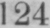124
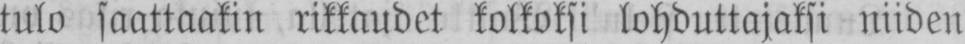tulo saattaakin rikkaudet kolkoksi lohduttajaksi niiden
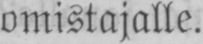omistajalle.
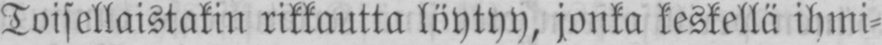Toisellaistakin rikkautta löytyy, jonka keskellä ihmi-
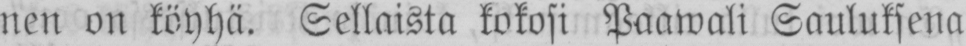nen on köyhä. Sellaista kokosi Paawali Sauluksena
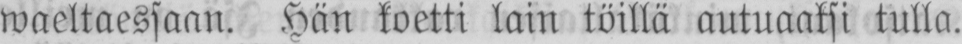waeltaessaan. Hän koetti lain töillä autuaaksi tulla.
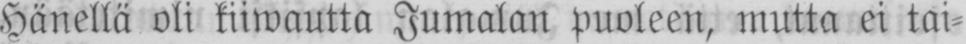Hänellä oli kiiwautta Jumalan puoleen, mutta ei tai-
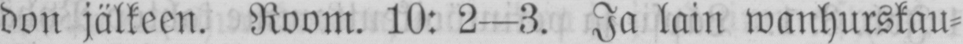don jälkeen. Room. 10: 2 —3. Ja lain wanhurskau-
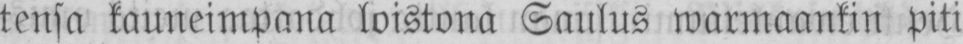tensa kauneimpana loistona Saulus warmaankin piti
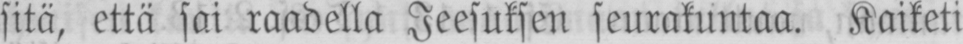sitä, että sai raadella Jeesuksen seurakuntaa. Kaiketi
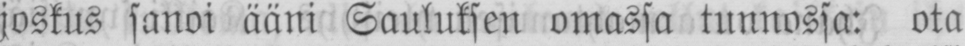joskus sanoi ääni Sauluksen omassa tunnossa: ota
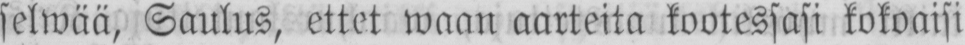selwää, Saulus, ettet waan aarteita kootessasi kokoaisi
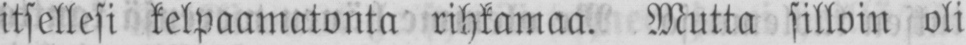itsellesi kelpaamatonta rihkamaa. Mutta silloin oli
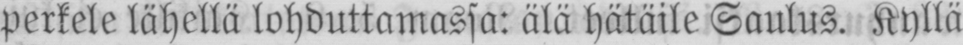perkele lähellä lohduttamassa: älä hätäile Saulus. Kyllä
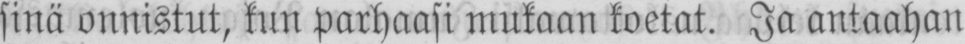sinä onnistut, kun parhaasi mukaan koetat. Ja antaahan
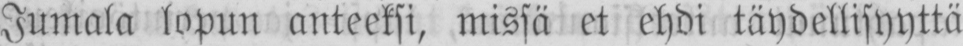Jumala lopun anteeksi, missä et ehdi täydellisyyttä
